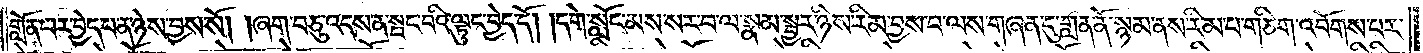གློན་པར་བྱེད་པ་ན་ཉེས་བྱས་སོ། །ཞག་བཅུ་འདས་ན་སྤང་བའི་ལྟུང་བྱེད་དོ། །དགེ་སློང་མས་སར་པ་ལ་སྣམ་སྦྱར་ཉིས་རིམ་བྱས་པ་ལས་གཞན་དུ་གླན་ནོ་སྙམ་ནས་རིམ་པ་གཅིག་འབོགས་པར་
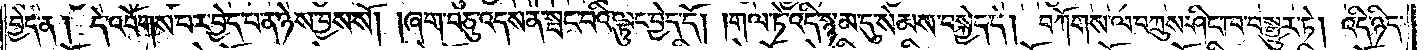བྱེད་ན། དེ་འབོགས་པར་བྱེད་པ་ན་ཉེས་བྱས་སོ། །ཞག་བཅུ་འདས་ན་སྤང་བའི་ལྟུང་བྱེད་དོ། །གལ་ཏེ་འདི་སྙམ་དུ་སེམས་བསྐྱེད་དེ། བཀོགས་ལ་བཀྲུས་ཤིང་ཁ་བསྒྱུར་ཏེ། འདི་ཉིད་
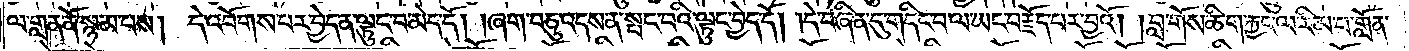ལ་གླན་ནོ་སྙམ་པས། དེ་འབོགས་པར་བྱེད་ན་ལྟུང་བ་མེད་དོ། །ཞག་བཅུ་འདས་ན་སྤང་བའི་ལྟུང་བྱེད་དོ། །དེ་བཞིན་དུ་གདིང་བ་ལ་ཡང་བརྗོད་པར་བྱའོ། །བླ་གོས་ཆིག་རྐྱང་ལ་རིམ་པ་གློན་
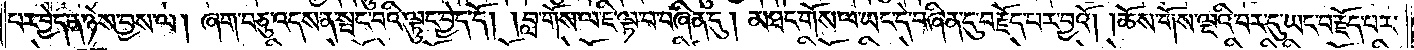པར་བྱེད་ན་ཉེས་བྱས་ལ། ཞག་བཅུ་འདས་ན་སྤང་བའི་ལྟུང་བྱེད་དོ། །བླ་གོས་ལ་ཇི་ལྟ་བ་བཞིན་དུ། མཐང་གོས་ལ་ཡང་དེ་བཞིན་དུ་བརྗོད་པར་བྱའོ། །ཆོས་གོས་ལྔའི་བར་དུ་ཡང་བརྗོད་པར་
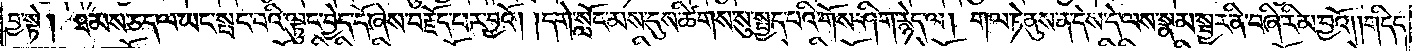བྱ་སྟེ། ཐམས་ཅད་ལ་ཡང་སྤང་བའི་ལྟུང་བྱེད་དོ་ཞེས་བརྗོད་པར་བྱའོ། །དགེ་སློང་མས་དུས་ཚིགས་སུ་སྤྱད་པའི་གོས་ཤིག་རྙེད་ལ། གལ་ཏེ་ནུས་ན་དེས་དེ་ལས་སྣམ་སྦྱར་ནི་བཞི་རིམ་བྱའོ། །གདིང་
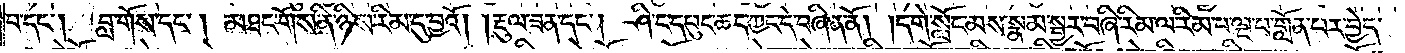བ་དང༌། བླ་གོས་དང༌། མཐང་གོས་ནི་ཉིས་རིམ་དུ་བྱའོ། །རྡུལ་ཟན་དང༌། ཤིང་དཔུང་ཆད་ཀྱང་དེ་བཞིན་ནོ། །དགེ་སློང་མས་སྣམ་སྦྱར་བཞི་རིམ་ལ་རིམ་པ་ལྔ་པ་གློན་པར་བྱེད་
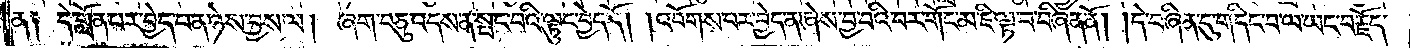ན༑ དེ་གློན་པར་བྱེད་པ་ན་ཉེས་བྱས་ལ། ཞག་བཅུ་འདས་ན་སྤང་བའི་ལྟུང་བྱེད་དོ། །འབོགས་པར་བྱེད་ན་ཞེས་བྱ་བའི་བར་གོང་མ་ཇི་ལྟ་བ་བཞིན་ནོ། །དེ་བཞིན་དུ་གདིང་བ་ལ་ཡང་བརྗོད་
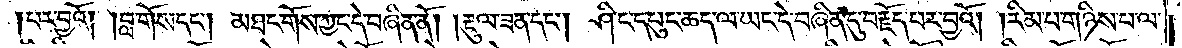པར་བྱའོ། །བླ་གོས་དང༌། མཐང་གོས་ཀྱང་དེ་བཞིན་ནོ། །རྡུལ་ཟན་དང༌། ཤིང་དཔུང་ཆད་ལ་ཡང་དེ་བཞིན་དུ་བརྗོད་པར་བྱའོ། །རིམ་པ་གཉིས་པ་ལ་
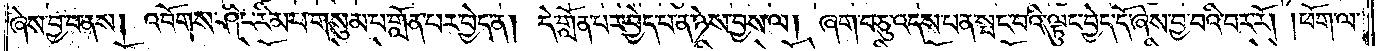ཞེས་བྱ་བ་ནས། འབོགས་ཤིང་རིམ་པ་གསུམ་པ་གློན་པར་བྱེད་ན། དེ་གློན་པར་བྱེད་པ་ན་ཉེས་བྱས་ལ། ཞག་བཅུ་འདས་པ་ན་སྤང་བའི་ལྟུང་བྱེད་དོ་ཞེས་བྱ་བའི་བར་རོ། །ཕོག་ལ་
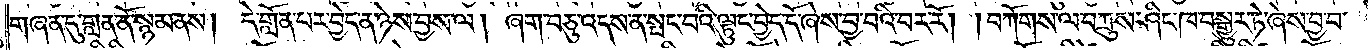གཞན་དུ་གླན་ནོ་སྙམ་ནས། དེ་གློན་པར་བྱེད་ན་ཉེས་བྱས་ལ། ཞག་བཅུ་འདས་ན་སྤང་བའི་ལྟུང་བྱེད་དོ་ཞེས་བྱ་བའི་བར་རོ། །བཀོགས་ལ་བཀྲུས་ཤིང་ཁ་བསྒྱུར་ཏེ་ཞེས་བྱ་བ་
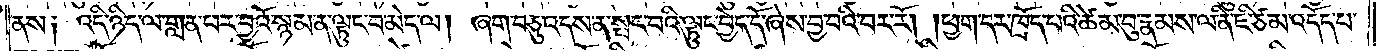ནས༑ འདི་ཉིད་ལ་གླན་པར་བྱའོ་སྙམ་ན་ལྟུང་བ་མེད་ལ། ཞག་བཅུ་འདས་ན་སྤང་བའི་ལྟུང་བྱེད་དོ་ཞེས་བྱ་བའི་བར་རོ། །ཕྱག་དར་ཁྲོད་པའི་ཚེམ་བུ་རྣམས་ལ་ནི་ཇི་ཙམ་འདོད་པ་
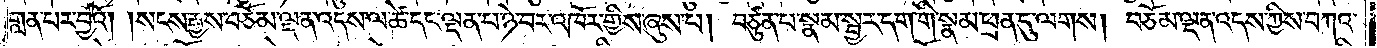གླན་པར་བྱའོ། །སངས་རྒྱས་བཅོམ་ལྡན་འདས་ལ་ཚེ་དང་ལྡན་པ་ཉེ་བར་འཁོར་གྱིས་ཞུས་པ། བཙུན་པ་སྣམ་སྦྱར་དག་གི་སྣམ་ཕྲན་དུ་ལགས། བཅོམ་ལྡན་འདས་ཀྱིས་བཀའ་
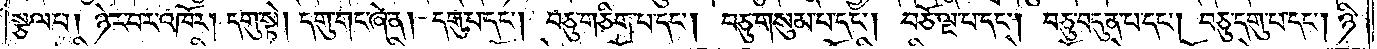སྩལ་པ། ཉེར་བར་འཁོར། དགུ་སྟེ། དགུ་གང་ཞེ་ན། དགུ་པ་དང༌། བཅུ་གཅིག་པ་དང༌། བཅུ་གསུམ་པ་དང༌། བཅོ་ལྔ་པ་དང༌། བཅུ་བདུན་པ་དང༌། བཅུ་དགུ་པ་དང༌། ཉི་
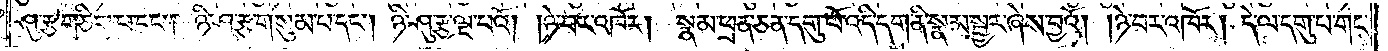ཤུ་རྩ་གཅིག་པ་དང༌། ཉི་ཤུ་རྩ་གསུམ་པ་དང༌། ཉི་ཤུ་རྩ་ལྔ་པའོ། །ཉེ་བར་འཁོར། སྣམ་ཕྲན་ཅན་དགུ་པོ་འདི་དག་ནི་སྣམ་སྦྱར་ཞེས་བྱའོ། །ཉེ་བར་འཁོར། དེ་ལ་དགུ་པ་གང་
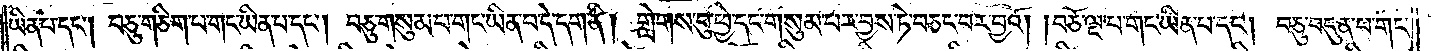ཡིན་པ་དང༌། བཅུ་གཅིག་པ་གང་ཡིན་པ་དང༌། བཅུ་གསུམ་པ་གང་ཡིན་པ་དེ་དག་ནི། གླེགས་བུ་ཕྱེ་དང་གསུམ་པར་བྱས་ཏེ་བཅང་བར་བྱའོ། །བཅོ་ལྔ་པ་གང་ཡིན་པ་དང༌། བཅུ་བདུན་པ་གང་
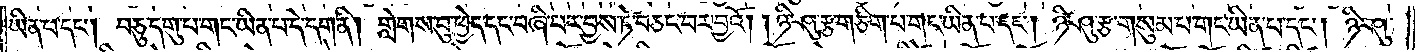ཡིན་པ་དང༌། བཅུ་དགུ་པ་གང་ཡིན་པ་དེ་དག་ནི། གླེགས་བུ་ཕྱེད་དང་བཞི་པར་བྱས་ཏེ་བཅང་བར་བྱའོ། །ཉི་ཤུ་རྩ་གཅིག་པ་གང་ཡིན་པ་དང༌། ཉི་ཤུ་རྩ་གསུམ་པ་གང་ཡིན་པ་དང༌། ཉི་ཤུ་
